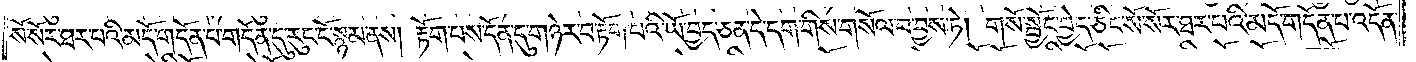སོ་སོར་ཐར་པའི་མདོ་གདོན་པ་གདོན་དུ་རུང་ངོ་སྙམ་ནས། རྟོག་པས་དོན་དུ་གཉེར་བ་རྟོག་པའི་ཡོ་བྱད་ཅན་དེ་དག་གིས་གསོལ་བ་བྱས་ཏེ། གསོ་སྦྱོང་བྱེད་ཅིང་སོ་སོར་ཐར་པའི་མདོ་གདོན་པ་འདོན་
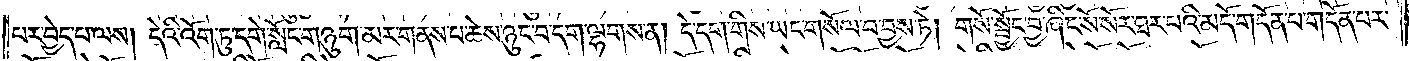པར་བྱེད་པ་ལས། དེའི་འོག་ཏུ་དགེ་སློང་གཉུག་མར་གནས་པ་ཆེས་ཉུང་བ་དག་ལྷགས་ན། དེ་དག་གིས་ཡང་གསོལ་བ་བྱས་ཏེ། གསོ་སྦྱོང་བྱ་ཞིང་སོ་སོར་ཐར་པའི་མདོ་གདོན་པ་གདོན་པར་
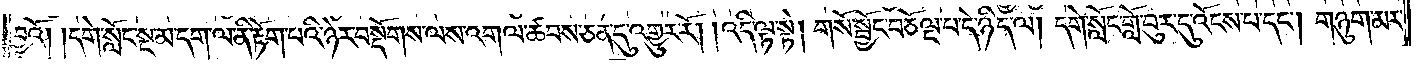བྱའོ། །དགེ་སློང་སྔ་མ་དག་ལ་ནི་རྟོག་པའི་ཉེར་བསྡོགས་ལས་འགལ་ཚབས་ཅན་དུ་འགྱུར་རོ། །འདི་ལྟ་སྟེ། གསོ་སྦྱོང་བཅོ་ལྔ་པ་དེ་ཉིད་ལ། དགེ་སློང་གློ་བུར་དུ་འོངས་པ་དང༌། གཉུག་མར་
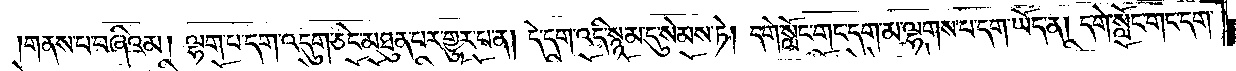གནས་པ་བཞིའམ། ལྷག་པ་དག་འདུག་ཅིང་མཐུན་པར་གྱུར་པ་ན། དེ་དག་འདི་སྙམ་དུ་སེམས་ཏེ། དགེ་སློང་གང་དག་མ་ལྷགས་པ་དག་ཡོད་ན། དགེ་སློང་གང་དག་
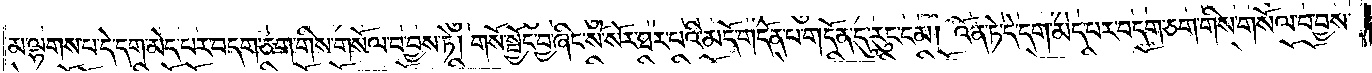མ་ལྷགས་པ་དེ་དག་མེད་པར་བདག་ཅག་གིས་གསོལ་བ་བྱས་ཏེ། གསོ་སྦྱོང་བྱ་ཞིང་སོ་སོར་ཐར་པའི་མདོ་གདོན་པ་གདོན་དུ་རུང་ངམ། འོན་ཏེ་དེ་དག་མེད་པར་བདག་ཅག་གིས་གསོལ་བ་བྱས་
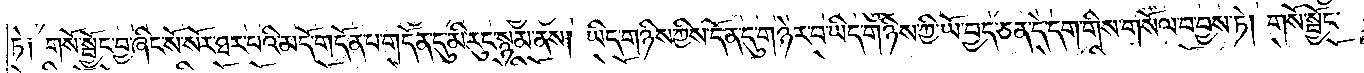ཏེ༑ གསོ་སྦྱོང་བྱ་ཞིང་སོ་སོར་ཐར་པའི་མདོ་གདོན་པ་གདོན་དུ་མི་རུང་སྙམ་ནས། ཡིད་གཉིས་ཀྱིས་དོན་དུ་གཉེར་བ་ཡིད་གཉིས་ཀྱི་ཡོ་བྱད་ཅན་དེ་དག་གིས་གསོལ་བ་བྱས་ཏེ། གསོ་སྦྱོང་
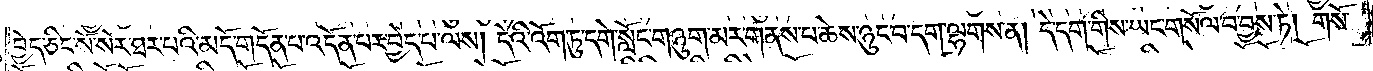བྱེད་ཅིང་སོ་སོར་ཐར་པའི་མདོ་གདོན་པ་འདོན་པར་བྱེད་པ་ལས། དེའི་འོག་ཏུ་དགེ་སློང་གཉུག་མར་གནས་པ་ཆེས་ཉུང་བ་དག་ལྷགས་ན། དེ་དག་གིས་ཡང་གསོལ་བ་བྱས་ཏེ། གསོ་
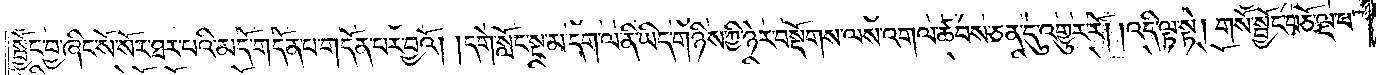སྦྱོང་བྱ་ཞིང་སོ་སོར་ཐར་པའི་མདོ་གདོན་པ་གདོན་པར་བྱའོ། །དགེ་སློང་སྔ་མ་དག་ལ་ནི་ཡིད་གཉིས་ཀྱི་ཉེར་བསྡོགས་ལས་འགལ་ཚབས་ཅན་དུ་འགྱུར་རོ། །འདི་ལྟ་སྟེ། གསོ་སྦྱོང་བཅོ་ལྔ་པ་
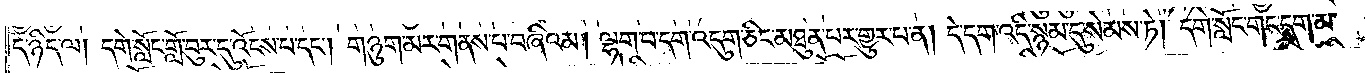དེ་ཉིད་ལ། དགེ་སློང་གློ་བུར་དུ་འོངས་པ་དང༌། གཉུག་མར་གནས་པ་བཞིའམ། ལྷག་པ་དག་འདུག་ཅིང་མཐུན་པར་གྱུར་པ་ན། དེ་དག་འདི་སྙམ་དུ་སེམས་ཏེ། དགེ་སློང་གང་དག་མ་
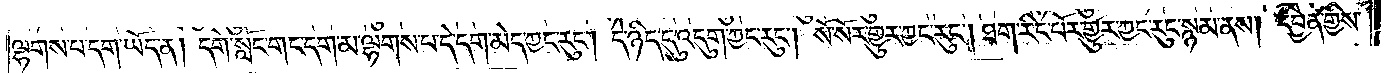ལྷགས་པ་དག་ཡོད་ན། དགེ་སློང་གང་དག་མ་ལྷགས་པ་དེ་དག་མེད་ཀྱང་རུང༌། དེ་ཉིད་དུ་འདུག་ཀྱང་རུང༌། སོ་སོར་གྱུར་ཀྱང་རུང༌། ཐག་རིང་པོར་གྱུར་ཀྱང་རུང་སྙམ་ནས། དབྱེན་གྱིས་
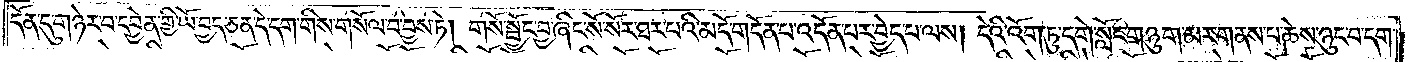དོན་དུ་གཉེར་བ་དབྱེན་གྱི་ཡོ་བྱད་ཅན་དེ་དག་གིས་གསོལ་བ་བྱས་ཏེ། གསོ་སྦྱོང་བྱ་ཞིང་སོ་སོར་ཐར་པའི་མདོ་གདོན་པ་འདོན་པར་བྱེད་པ་ལས། དེའི་འོག་ཏུ་དགེ་སློང་གཉུག་མར་གནས་པ་ཆེས་ཉུང་བ་དག་
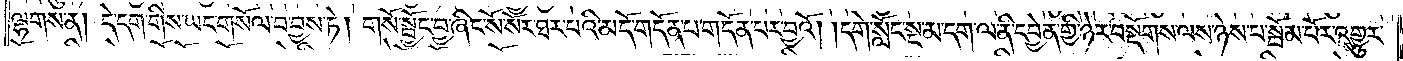ལྷགས་ན། དེ་དག་གིས་ཡང་གསོལ་བ་བྱས་ཏེ། གསོ་སྦྱོང་བྱ་ཞིང་སོ་སོར་ཐར་པའི་མདོ་གདོན་པ་གདོན་པར་བྱའོ། །དགེ་སློང་སྔ་མ་དག་ལ་ནི་དབྱེན་གྱི་ཉེར་བསྡོགས་ལས་ཉེས་པ་སྦོམ་པོར་འགྱུར་
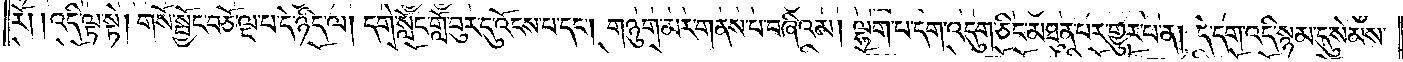རོ། །འདི་ལྟ་སྟེ། གསོ་སྦྱོང་བཅོ་ལྔ་པ་དེ་ཉིད་ལ། དགེ་སློང་གློ་བུར་དུ་འོངས་པ་དང༌། གཉུག་མར་གནས་པ་བཞིའམ། ལྷག་པ་དག་འདུག་ཅིང་མཐུན་པར་གྱུར་པ་ན། དེ་དག་འདི་སྙམ་དུ་སེམས་
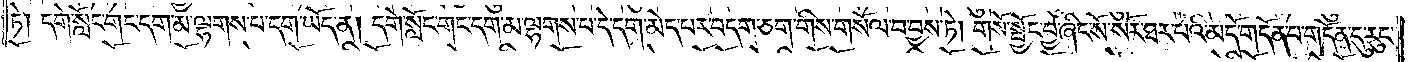ཏེ། དགེ་སློང་གང་དག་མ་ལྷགས་པ་དག་ཡོད་ན། དགེ་སློང་གང་དག་མ་ལྷགས་པ་དེ་དག་མེད་པར་བདག་ཅག་གིས་གསོལ་བ་བྱས་ཏེ། གསོ་སྦྱོང་བྱ་ཞིང་སོ་སོར་ཐར་པའི་མདོ་གདོན་པ་གདོན་དུ་རུང་
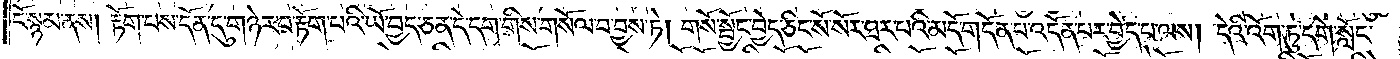ངོ་སྙམ་ནས། རྟོག་པས་དོན་དུ་གཉེར་བ་རྟོག་པའི་ཡོ་བྱད་ཅན་དེ་དག་གིས་གསོལ་བ་བྱས་ཏེ། གསོ་སྦྱོང་བྱེད་ཅིང་སོ་སོར་ཐར་པའི་མདོ་གདོན་པ་འདོན་པར་བྱེད་པ་ལས། དེའི་འོག་ཏུ་དགེ་སློང་
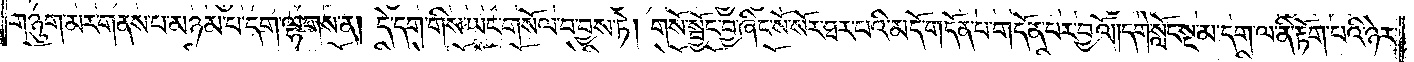གཉུག་མར་གནས་པ་མཉམ་པ་དག་ལྷགས་ན། དེ་དག་གིས་ཡང་གསོལ་བ་བྱས་ཏེ། གསོ་སྦྱོང་བྱ་ཞིང་སོ་སོར་ཐར་པའི་མདོ་གདོན་པ་གདོན་པར་བྱའོ། །དགེ་སློང་སྔ་མ་དག་ལ་ནི་རྟོག་པའི་ཉེར་
